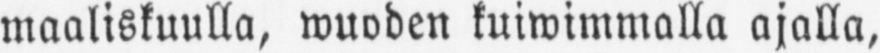maaliskuulla, wuoden kuiwimmalla ajalla,
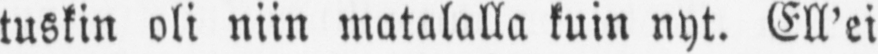tuskin oli niin matalalla kuin nyt. Ell’ei
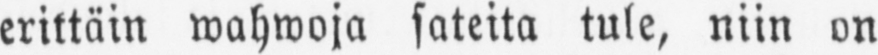erittäin wahwoja sateita tule, niin on
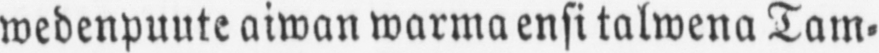wedenpuute aiwan warma ensi talwena Tam-
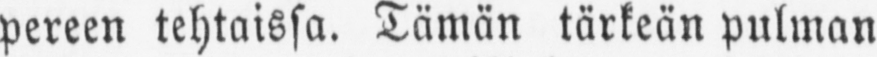pereen tehtaissa. Tämän tärkeän pulman
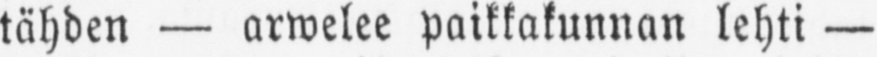tähden — arwelee paikkakunnan lehti —
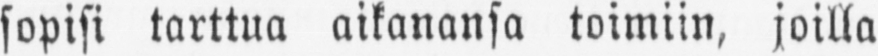sopisi tarttua aikanansa toimiin, joilla
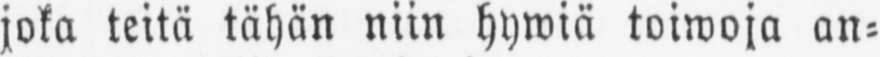joka teitä tähän niin hywiä toiwoja an-
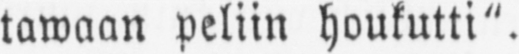tawaan peliin houkutti".
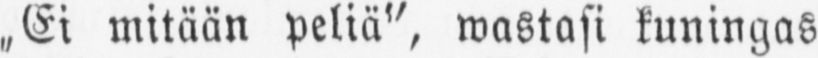„Ei mitään peliä", wastasi kuningas
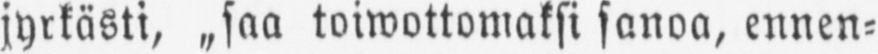jyrkästi, „saa toiwottomaksi sanoa, ennen-
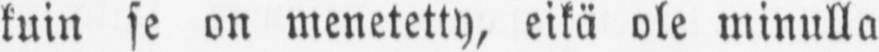kuin se on menetetty, eikä ole minulla
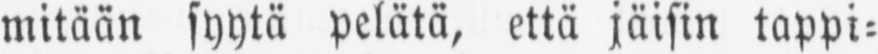mitään syytä pelätä, että jäisin tappi-
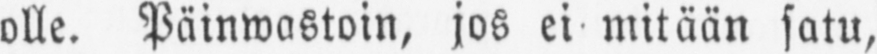olle. Päinwastoin, jos ei mitään satu,
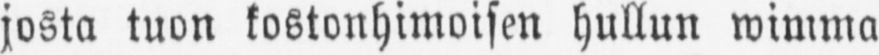josta tuon kostonhimoisen hullun wimma
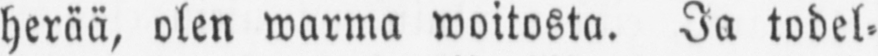herää, olen warma woitosta. Ja todel-
